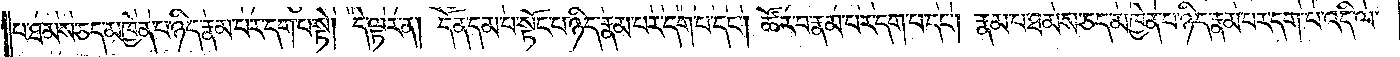པ་ཐམས་ཅད་མཁྱེན་པ་ཉིད་རྣམ་པར་དག་པ་སྟེ། དེ་ལྟར་ན། དོན་དམ་པ་སྟོང་པ་ཉིད་རྣམ་པར་དག་པ་དང༌། ཚོར་བ་རྣམ་པར་དག་པ་དང༌། རྣམ་པ་ཐམས་ཅད་མཁྱེན་པ་ཉིད་རྣམ་པར་དག་པ་འདི་ལ་
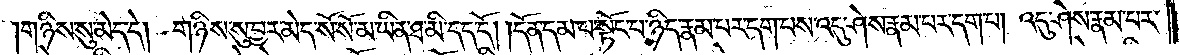གཉིས་སུ་མེད་དེ། གཉིས་སུ་བྱར་མེད་སོ་སོ་མ་ཡིན་ཐ་མི་དད་དོ། །དོན་དམ་པ་སྟོང་པ་ཉིད་རྣམ་པར་དག་པས་འདུ་ཤེས་རྣམ་པར་དག་པ། འདུ་ཤེས་རྣམ་པར་
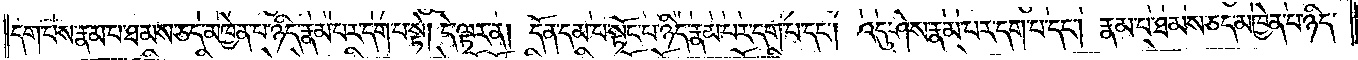དག་པས་རྣམ་པ་ཐམས་ཅད་མཁྱེན་པ་ཉིད་རྣམ་པར་དག་པ་སྟེ། དེ་ལྟར་ན། དོན་དམ་པ་སྟོང་པ་ཉིད་རྣམ་པར་དག་པ་དང༌། འདུ་ཤེས་རྣམ་པར་དག་པ་དང༌། རྣམ་པ་ཐམས་ཅད་མཁྱེན་པ་ཉིད་
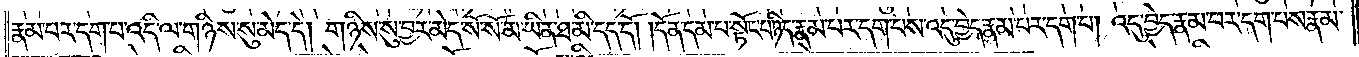རྣམ་པར་དག་པ་འདི་ལ་གཉིས་སུ་མེད་དེ། གཉིས་སུ་བྱར་མེད་སོ་སོ་མ་ཡིན་ཐ་མི་དད་དོ། །དོན་དམ་པ་སྟོང་པ་ཉིད་རྣམ་པར་དག་པས་འདུ་བྱེད་རྣམ་པར་དག་པ། འདུ་བྱེད་རྣམ་པར་དག་པས་རྣམ་
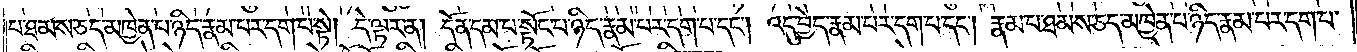པ་ཐམས་ཅད་མཁྱེན་པ་ཉིད་རྣམ་པར་དག་པ་སྟེ། དེ་ལྟར་ན། དོན་དམ་པ་སྟོང་པ་ཉིད་རྣམ་པར་དག་པ་དང༌། འདུ་བྱེད་རྣམ་པར་དག་པ་དང༌། རྣམ་པ་ཐམས་ཅད་མཁྱེན་པ་ཉིད་རྣམ་པར་དག་པ་
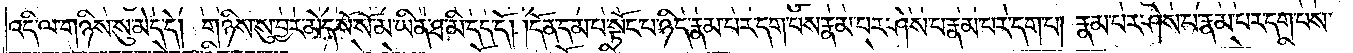འདི་ལ་གཉིས་སུ་མེད་དེ། གཉིས་སུ་བྱར་མེད་སོ་སོ་མ་ཡིན་ཐ་མི་དད་དོ། །དོན་དམ་པ་སྟོང་པ་ཉིད་རྣམ་པར་དག་པས་རྣམ་པར་ཤེས་པ་རྣམ་པར་དག་པ། རྣམ་པར་ཤེས་པ་རྣམ་པར་དག་པས་
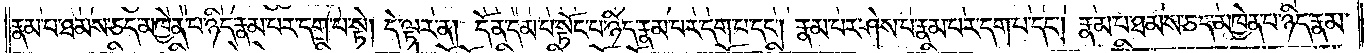རྣམ་པ་ཐམས་ཅད་མཁྱེན་པ་ཉིད་རྣམ་པར་དག་པ་སྟེ། དེ་ལྟར་ན། དོན་དམ་པ་སྟོང་པ་ཉིད་རྣམ་པར་དག་པ་དང༌། རྣམ་པར་ཤེས་པ་རྣམ་པར་དག་པ་དང༌། རྣམ་པ་ཐམས་ཅད་མཁྱེན་པ་ཉིད་རྣམ་
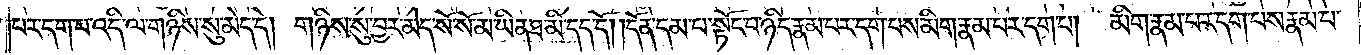པར་དག་པ་འདི་ལ་གཉིས་སུ་མེད་དེ། གཉིས་སུ་བྱར་མེད་སོ་སོ་མ་ཡིན་ཐ་མི་དད་དོ། །དོན་དམ་པ་སྟོང་པ་ཉིད་རྣམ་པར་དག་པས་མིག་རྣམ་པར་དག་པ། མིག་རྣམ་པར་དག་པས་རྣམ་པ་
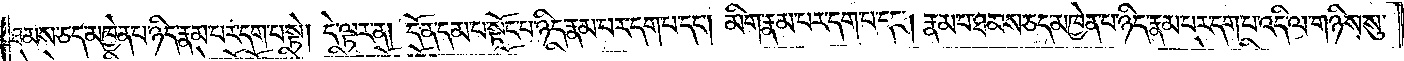ཐམས་ཅད་མཁྱེན་པ་ཉིད་རྣམ་པར་དག་པ་སྟེ། དེ་ལྟར་ན། དོན་དམ་པ་སྟོང་པ་ཉིད་རྣམ་པར་དག་པ་དང༌། མིག་རྣམ་པར་དག་པ་དང༌། རྣམ་པ་ཐམས་ཅད་མཁྱེན་པ་ཉིད་རྣམ་པར་དག་པ་འདི་ལ་གཉིས་སུ་
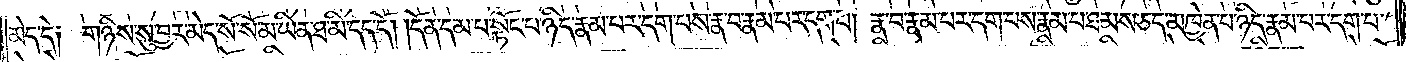མེད་དེ། གཉིས་སུ་བྱར་མེད་སོ་སོ་མ་ཡིན་ཐ་མི་དད་དོ། །དོན་དམ་པ་སྟོང་པ་ཉིད་རྣམ་པར་དག་པས་རྣ་བ་རྣམ་པར་དག་པ། རྣ་བ་རྣམ་པར་དག་པས་རྣམ་པ་ཐམས་ཅད་མཁྱེན་པ་ཉིད་རྣམ་པར་དག་པ་
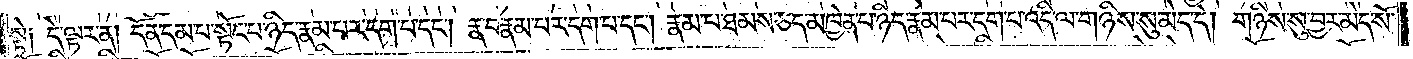སྟེ། དེ་ལྟར་ན། དོན་དམ་པ་སྟོང་པ་ཉིད་རྣམ་པར་དག་པ་དང༌། རྣ་བ་རྣམ་པར་དག་པ་དང༌། རྣམ་པ་ཐམས་ཅད་མཁྱེན་པ་ཉིད་རྣམ་པར་དག་པ་འདི་ལ་གཉིས་སུ་མེད་དེ། གཉིས་སུ་བྱར་མེད་སོ་
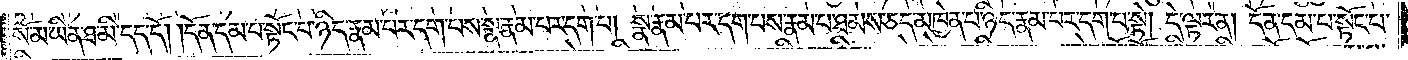སོ་མ་ཡིན་ཐ་མི་དད་དོ། །དོན་དམ་པ་སྟོང་པ་ཉིད་རྣམ་པར་དག་པས་སྣ་རྣམ་པར་དག་པ། སྣ་རྣམ་པར་དག་པས་རྣམ་པ་ཐམས་ཅད་མཁྱེན་པ་ཉིད་རྣམ་པར་དག་པ་སྟེ། དེ་ལྟར་ན། དོན་དམ་པ་སྟོང་པ་
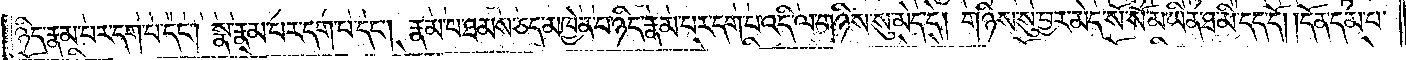ཉིད་རྣམ་པར་དག་པ་དང༌། སྣ་རྣམ་པར་དག་པ་དང༌། རྣམ་པ་ཐམས་ཅད་མཁྱེན་པ་ཉིད་རྣམ་པར་དག་པ་འདི་ལ་གཉིས་སུ་མེད་དེ། གཉིས་སུ་བྱར་མེད་སོ་སོ་མ་ཡིན་ཐ་མི་དད་དོ། །དོན་དམ་པ་
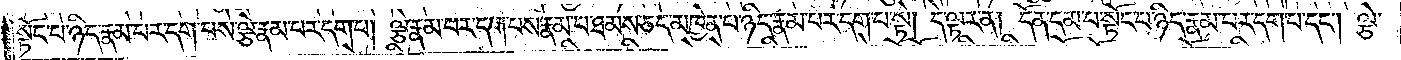སྟོང་པ་ཉིད་རྣམ་པར་དག་པས་ལྕེ་རྣམ་པར་དག་པ། ལྕེ་རྣམ་པར་དག་པས་རྣམ་པ་ཐམས་ཅད་མཁྱེན་པ་ཉིད་རྣམ་པར་དག་པ་སྟེ། དེ་ལྟར་ན། དོན་དམ་པ་སྟོང་པ་ཉིད་རྣམ་པར་དག་པ་དང༌། ལྕེ་
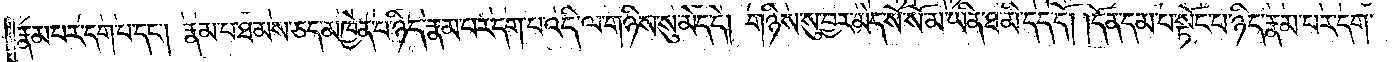རྣམ་པར་དག་པ་དང༌། རྣམ་པ་ཐམས་ཅད་མཁྱེན་པ་ཉིད་རྣམ་པར་དག་པ་འདི་ལ་གཉིས་སུ་མེད་དེ། གཉིས་སུ་བྱར་མེད་སོ་སོ་མ་ཡིན་ཐ་མི་དད་དོ། །དོན་དམ་པ་སྟོང་པ་ཉིད་རྣམ་པར་དག་
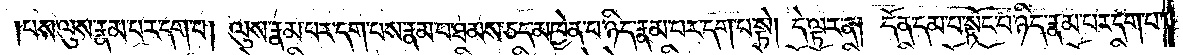པས་ལུས་རྣམ་པར་དག་པ། ལུས་རྣམ་པར་དག་པས་རྣམ་པ་ཐམས་ཅད་མཁྱེན་པ་ཉིད་རྣམ་པར་དག་པ་སྟེ། དེ་ལྟར་ན། དོན་དམ་པ་སྟོང་པ་ཉིད་རྣམ་པར་དག་པ་
